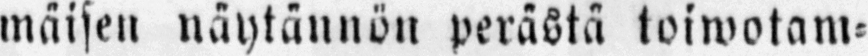mäisen näytännön perästä toiwotam-
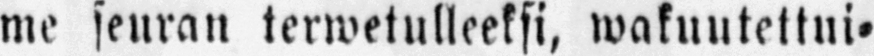me seuran terwetulleeksi, wakuutettui-
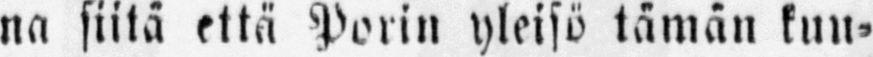na siitä että Porin yleisö tämän kuu-
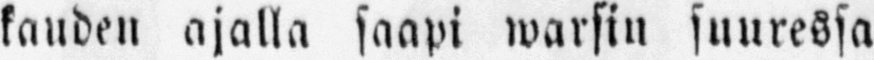kauden ajalla saapi warsin suuressa
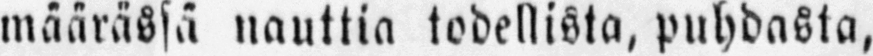määrässä nauttia todellista, puhdasta,
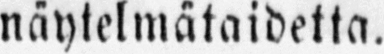näytelmätaidetta.
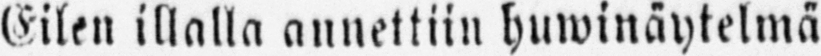Eilen illalla annettiin hnwinäytelmä
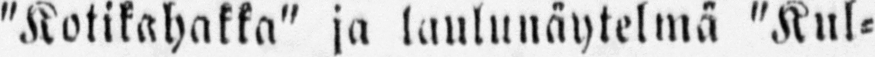"Kotikahakka" ja laulunäytelmä "Kul-
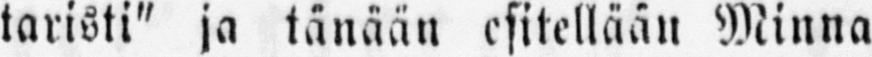taristi" ja tänään esitellään Minna
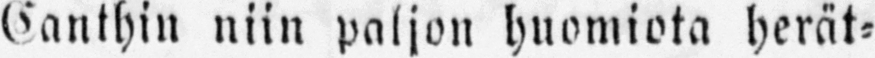Canthin niin paljon huomiota herät-
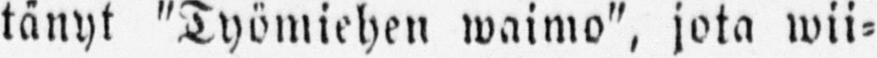tänyt "Työmiehen waimo", jota wii-
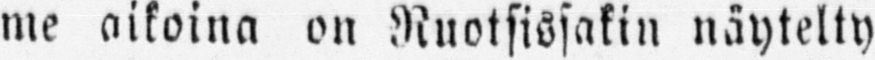me aikoina on Ruotsissakin näytelty
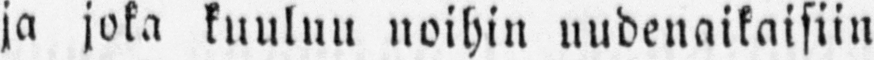ja joka kuuluu noihin uudenaikaisiin
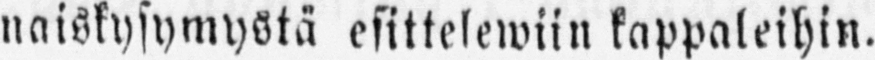naiskysymystä esittelewiin kappaleihin.
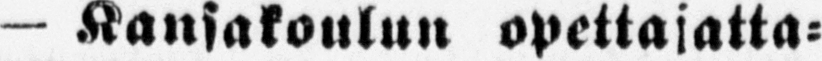— Kansakoulun opettajatta-
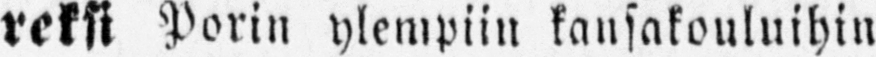reksi Porin ylempiin kansakouluihin
